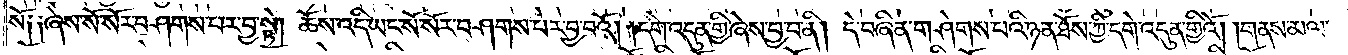སོ༑ ༑ཞེས་སོ་སོར་བཤགས་པར་བྱ་སྟེ། ཆོས་འདི་ཡང་སོ་སོར་བཤགས་པར་བྱ་བའོ། །དགེ་འདུན་གྱི་ཞེས་བྱ་བ་ནི། དེ་བཞིན་གཤེགས་པའི་ཉན་ཐོས་ཀྱི་དགེ་འདུན་གྱིའོ། །གནས་མལ་
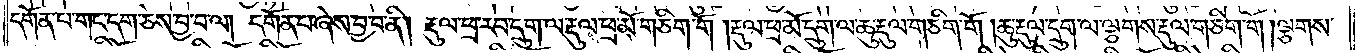དགོན་པ་གང་དག་ཅེས་བྱ་བ་ལ། དགོན་པ་ཞེས་བྱ་བ་ནི། རྡུལ་ཕྲ་རབ་དྲུག་ལ་རྡུལ་ཕྲ་མོ་གཅིག་གོ །རྡུལ་ཕྲ་མོ་དྲུག་ལ་ཆུ་རྡུལ་གཅིག་གོ །ཆུ་རྡུལ་དྲུག་ལ་ལྕགས་རྡུལ་གཅིག་གོ །ལྕགས་
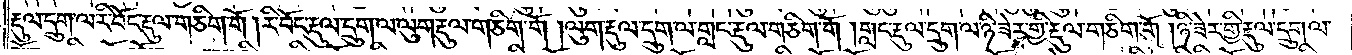རྡུལ་དྲུག་ལ་རི་བོང་རྡུལ་གཅིག་གོ །རི་བོང་རྡུལ་དྲུག་ལ་ལུག་རྡུལ་གཅིག་གོ། །ལུག་རྡུལ་དྲུག་ལ་གླང་རྡུལ་གཅིག་གོ །གླང་རྡུལ་དྲུག་ལ་ཉི་ཟེར་གྱི་རྡུལ་གཅིག་གོ །ཉི་ཟེར་གྱི་རྡུལ་དྲུག་ལ་
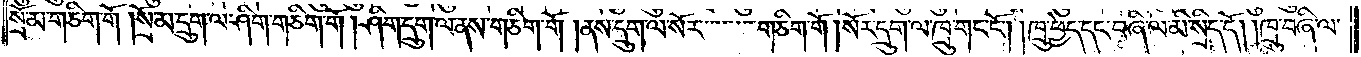སྲོ་མ་གཅིག་གོ །སྲོ་མ་དྲུག་ལ་ཤིག་གཅིག་གོ །ཤིག་དྲུག་ལ་ནས་གཅིག་གོ །ནས་དྲུག་ལ་སོར་གཅིག་གོ །སོར་དྲུག་ལ་ཁྲུ་གང་ངོ༌། །ཁྲུ་ཕྱེད་དང་བཞི་ལ་མི་སྲིད་དོ། །ཁྲུ་བཞི་ལ་
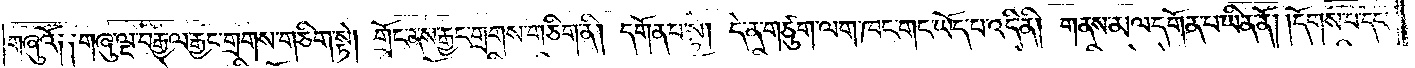གཞུའོ། །གཞུ་ལྔ་བརྒྱ་ལ་རྒྱང་གྲགས་གཅིག་སྟེ། གྲོང་ནས་རྒྱང་གྲགས་གཅིག་ནི། དགོན་པ་སྟེ། དེ་ན་གཙུག་ལག་ཁང་གང་ཡོད་པ་འདི་ནི། གནས་མལ་དགོན་པ་ཡིན་ནོ། །དོགས་པ་དང་
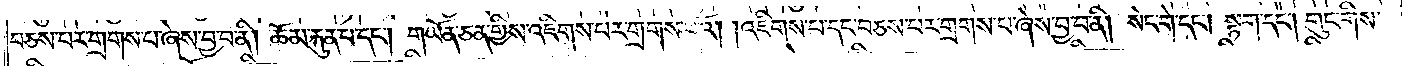བཅས་པར་གྲགས་པ་ཞེས་བྱ་བ་ནི། ཆོམ་རྐུན་པ་དང༌། གཡོན་ཅན་གྱིས་འཇིགས་པར་གྲགས་པའོ། །འཇིགས་པ་དང་བཅས་པར་གྲགས་པ་ཞེས་བྱ་བ་ནི། སེང་གེ་དང༌། སྟག་དང༌། གུང་གིས་
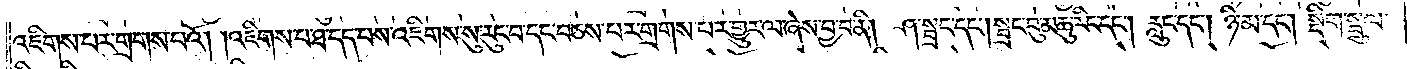འཇིགས་པར་གྲགས་པའོ། །འཇིགས་པ་ཐ་དད་པས་འཇིགས་སུ་རུང་བ་དང་བཅས་པར་གྲགས་པར་གྱུར་ལ་ཞེས་བྱ་བ་ནི། ཤ་སྦྲང་དང༌། སྦྲང་བུ་མཆུ་རིང་དང༌། རླུང་དང༌། ཉི་མ་དང༌། སྡིག་སྦྲུལ་
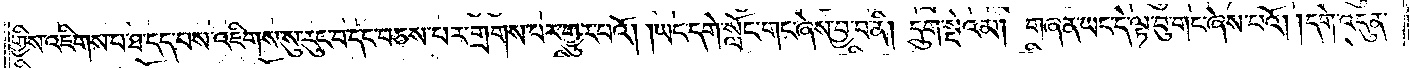གྱིས་འཇིགས་པ་ཐ་དད་པས་འཇིགས་སུ་རུང་བ་དང་བཅས་པར་གྲགས་པར་གྱུར་པའོ། །ཡང་དགེ་སློང་གང་ཞེས་བྱ་བ་ནི། དྲུག་སྡེའམ། གཞན་ཡང་དེ་ལྟ་བུ་གང་ཞེས་པའོ། །དགེ་འདུན་
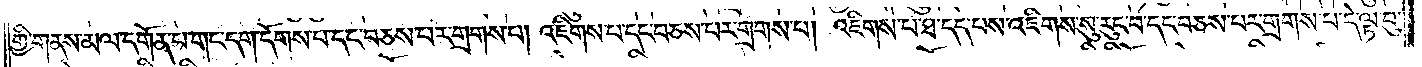གྱི་གནས་མལ་དགོན་པ་གང་དག་དོགས་པ་དང་བཅས་པར་གྲགས་པ། འཇིགས་པ་དང་བཅས་པར་གྲགས་པ། འཇིགས་པ་ཐ་དད་པས་འཇིགས་སུ་རུང་བ་དང་བཅས་པར་གྲགས་པ་དེ་ལྟ་བུ་
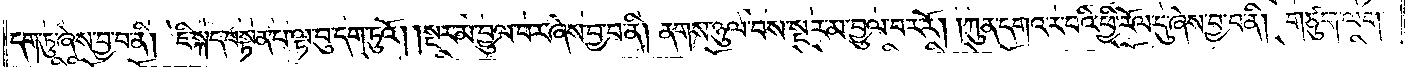དག་ཏུ་ཞེས་བྱ་བ་ནི། ཇི་སྐད་བསྟན་པ་ལྟ་བུ་དག་ཏུའོ། །སྔར་མ་བྱུལ་བར་ཞེས་བྱ་བ་ནི། ནགས་ཉུལ་བས་སྔར་མ་བྱུལ་བར་རོ། །ཀུན་དགའ་ར་བའི་ཕྱི་རོལ་དུ་ཞེས་བྱ་བ་ནི། གཙུག་ལག་
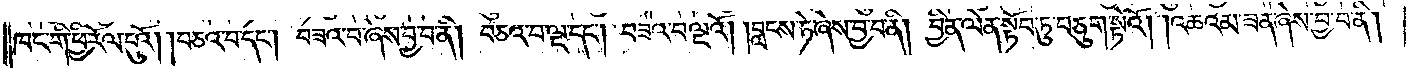ཁང་གི་ཕྱི་རོལ་དུའོ། །བཅའ་བ་དང༌། བཟའ་བ་ཞེས་བྱ་བ་ནི། བཅའ་བ་ལྔ་དང༌། བཟའ་བ་ལྔའོ། །བླངས་ཏེ་ཞེས་བྱ་བ་ནི། བྱིན་ལེན་སྟོབ་ཏུ་བཅུག་སྟེའོ། །འཆའམ་ཟན་ཞེས་བྱ་བ་ནི།
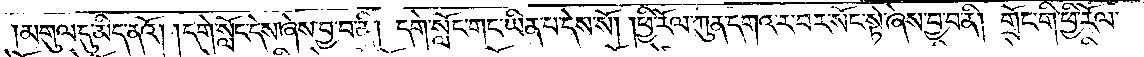མགུལ་དུ་མིད་ནའོ། །དགེ་སློང་དེས་ཞེས་བྱ་བ་ནི། དགེ་སློང་གང་ཡིན་པ་དེས་སོ། །ཕྱི་རོལ་ཀུན་དགའ་ར་བར་སོང་སྟེ་ཞེས་བྱ་བ་ནི། གྲོང་གི་ཕྱི་རོལ་
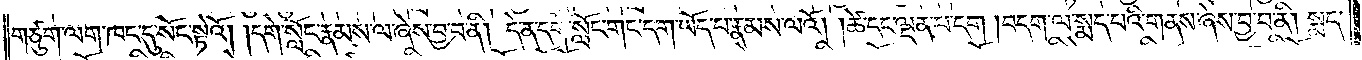གཙུག་ལག་ཁང་དུ་སོང་སྟེའོ། །དགེ་སློང་རྣམས་ལ་ཞེས་བྱ་བ་ནི། དེ་ན་དགེ་སློང་གང་དག་ཡོད་པ་རྣམས་ལའོ། །ཚེ་དང་ལྡན་པ་དག །བདག་ལ་སྨད་པའི་གནས་ཞེས་བྱ་བ་ནི། སྨད་
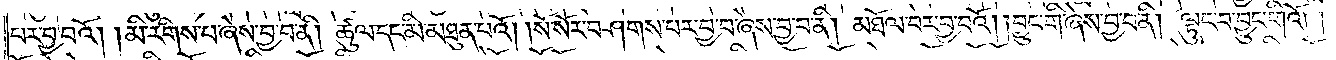པར་བྱ་བའོ། །མི་རིགས་པ་ཞེས་བྱ་བ་ནི། ཚུལ་དང་མི་མཐུན་པའོ། །སོ་སོར་བཤགས་པར་བྱ་བ་ཞེས་བྱ་བ་ནི། མཐོལ་བར་བྱ་བའོ། །བྱུང་གི་ཞེས་བྱ་བ་ནི། ལྟུང་བ་བྱུང་གིའོ། །
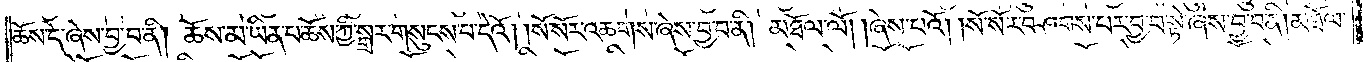ཆོས་དེ་ཞེས་བྱ་བ་ནི། ཆོས་མ་ཡིན་པ་ཆོས་ཀྱི་སྒྲར་གསུངས་པ་དེའོ། །སོ་སོར་འཆགས་ཞེས་བྱ་བ་ནི། མཐོལ་ལོ། །ཞེས་པའོ། །སོ་སོར་བཤགས་པར་བྱ་བ་སྟེ་ཞེས་བྱ་བ་ནི། མཐོལ་
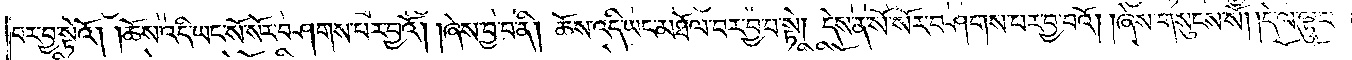བར་བྱ་སྟེའོ། །ཆོས་འདི་ཡང་སོ་སོར་བཤགས་པར་བྱའོ། །ཞེས་བྱ་བ་ནི། ཆོས་འདི་ཡང་མཐོལ་བར་བྱ་བ་སྟེ། དེས་ན་སོ་སོར་བཤགས་པར་བྱ་བའོ། །ཞེས་གསུངས་སོ། །དེ་ལ་ལྟུང་
